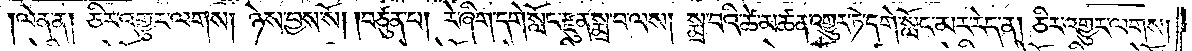ལེན་ན། ཅིར་འགྱུར་ལགས། ཉེས་བྱས་སོ། །བཙུན་པ། རེ་ཞིག་དགེ་སློང་རྫུན་སྨྲ་བ་ལས། སྨྲ་བའི་ཚེ་མཚན་འགྱུར་ཏེ་དགེ་སློང་མར་རེད་ན། ཅིར་འགྱུར་ལགས།
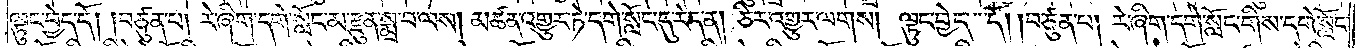ལྟུང་བྱེད་དོ། །བཙུན་པ། རེ་ཞིག་དགེ་སློང་མ་རྫུན་སྨྲ་བ་ལས། མཚན་འགྱུར་ཏེ་དགེ་སློང་དུ་རེད་ན། ཅིར་འགྱུར་ལགས། ལྟུང་བྱེད་དོ། །བཙུན་པ། རེ་ཞིག་དགེ་སློང་གིས་དགེ་སློང་
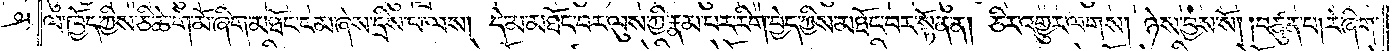ལ་ཁྱོད་ཀྱིས་ཅི་ཆེ་གེ་མོ་ཞིག་མཐོང་ངམ་ཞེས་དྲིས་པ་ལས། དེ་མ་མཐོང་བར་ལུས་ཀྱི་རྣམ་པར་རིག་བྱེད་ཀྱིས་མཐོང་བར་སྟོན་ན། ཅིར་འགྱུར་ལགས། ཉེས་བྱས་སོ། །བཙུན་པ། རེ་ཞིག་
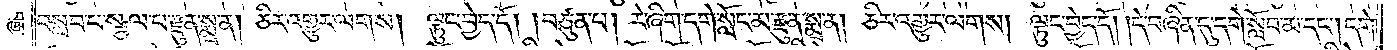བསླབ་པ་སྩལ་པ་རྫུན་སྨྲ་ན། ཅིར་འགྱུར་ལགས། ལྟུང་བྱེད་དོ། །བཙུན་པ། རེ་ཞིག་དགེ་སློང་མ་རྫུན་སྨྲ་ན། ཅིར་འགྱུར་ལགས། ལྟུང་བྱེད་དོ། །དེ་བཞིན་དུ་དགེ་སློབ་མ་དང༌། དགེ་
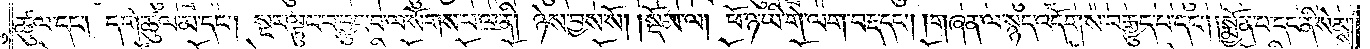ཚུལ་དང༌། དགེ་ཚུལ་མ་དང༌། སྔར་ལྟུང་བ་བྱུང་བ་ལ་སོགས་པ་ལ་ནི། ཉེས་བྱས་སོ།    །སྡོམ་ལ། ཕོ་ཉ་ཡི་གེ་ལག་བརྡ་དང༌། །གཞན་ལ་སྙད་འདོགས་བརྒྱུད་པ་དང༌། །སྨྱོན་པ་དང་ནི་སེམས་
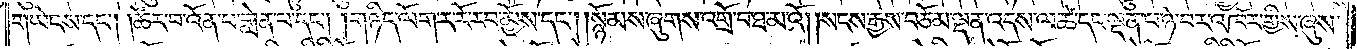གཡེངས་དང༌། །ཚོར་བ་འོན་པ་གླེན་པ་དང༌། །གཉིད་ལོག་ར་རོ་རབ་མྱོས་དང༌། །སྙོམས་ཞུགས་འགྲོ་བ་ཐ་མའོ། །སངས་རྒྱས་བཅོམ་ལྡན་འདས་ལ་ཚེ་དང་ལྡན་པ་ཉེ་བར་འཁོར་གྱིས་ཞུས་
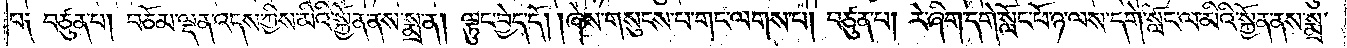པ༑ བཙུན་པ། བཅོམ་ལྡན་འདས་ཀྱིས་མིའི་སྐྱོན་ནས་སྨྲ་ན། ལྟུང་བྱེད་དོ། །ཞེས་གསུངས་པ་གང་ལགས་པ། བཙུན་པ། རེ་ཞིག་དགེ་སློང་ཕོ་ཉ་ལས་དགེ་སློང་ལ་མིའི་སྐྱོན་ནས་སྨྲ་
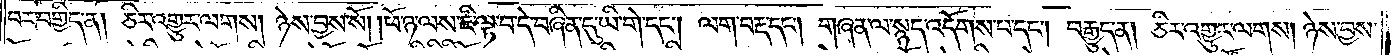བར་བགྱིད་ན། ཅིར་འགྱུར་ལགས། ཉེས་བྱས་སོ། །ཕོ་ཉ་ལས་ཇི་ལྟ་བ་དེ་བཞིན་དུ་ཡི་གེ་དང༌། ལག་བརྡ་དང༌། གཞན་ལ་སྙད་འདོགས་པ་དང༌། བརྒྱུད་ན། ཅིར་འགྱུར་ལགས། ཉེས་བྱས་
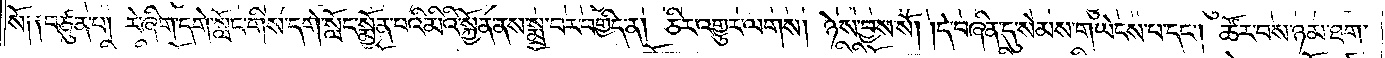སོ༑ ༑བཙུན་པ། རེ་ཞིག་དགེ་སློང་གིས་དགེ་སློང་སྨྱོན་པའི་མིའི་སྐྱོན་ནས་སྨྲ་བར་བགྱིད་ན། ཅིར་འགྱུར་ལགས། ཉེས་བྱས་སོ། །དེ་བཞིན་དུ་སེམས་གཡེངས་པ་དང༌། ཚོར་བས་ཉམ་ཐག་
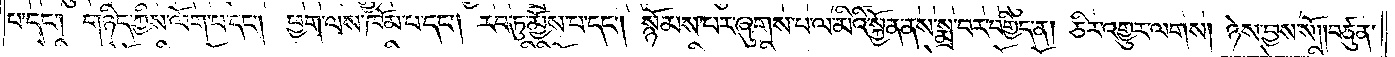པ་དང༌། གཉིད་ཀྱིས་ལོག་པ་དང༌། ཕྱག་ལས་ཁོམ་པ་དང༌། རབ་ཏུ་མྱོས་པ་དང༌། སྙོམས་པར་ཞུགས་པ་ལ་མིའི་སྐྱོན་ནས་སྨྲ་བར་བགྱིད་ན། ཅིར་འགྱུར་ལགས། ཉེས་བྱས་སོ། །བཙུན་
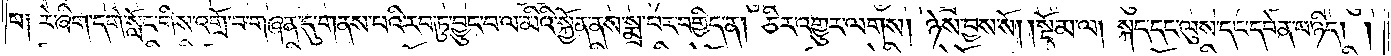པ༑ རེ་ཞིག་དགེ་སློང་གིས་འགྲོ་བ་གཞན་དུ་གནས་པའི་རབ་ཏུ་བྱུང་བ་ལ་མིའི་སྐྱོན་ནས་སྨྲ་བར་བགྱིད་ན། ཅིར་འགྱུར་ལགས། ཉེས་བྱས་སོ། །སྡོམ་ལ། སྐད་དང་ལུས་དང་དབེན་པ་ཉིད། །
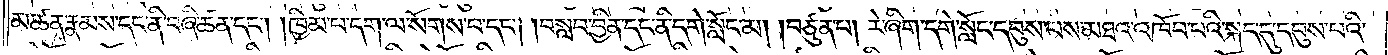མཚན་རྣམས་དང་ནི་བཞི་ཚན་དང༌། །ཁྱིམ་པ་དག་ལ་སོགས་པ་དང༌། །བསླབ་བྱིན་དང་ནི་དགེ་སློང་མ། །བཙུན་པ། རེ་ཞིག་དགེ་སློང་དབུས་པས་མཐའ་འཁོབ་པའི་སྐད་དུ་དབུས་པའི་
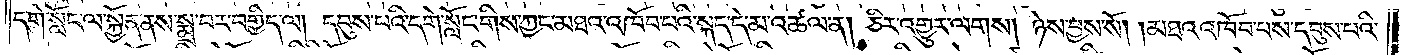དགེ་སློང་ལ་སྐྱོན་ནས་སྨྲ་བར་བགྱིད་ལ། དབུས་པའི་དགེ་སློང་གིས་ཀྱང་མཐའ་འཁོབ་པའི་སྐད་དེ་མ་འཚལ་ན། ཅིར་འགྱུར་ལགས། ཉེས་བྱས་སོ། །མཐའ་འཁོབ་པས་དབུས་པའི་
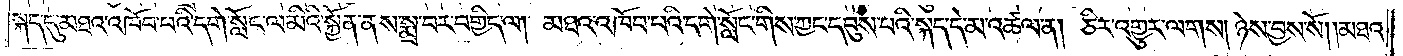སྐད་དུ་མཐའ་འཁོབ་པའི་དགེ་སློང་ལ་མིའི་སྐྱོན་ནས་སྨྲ་བར་བགྱིད་ལ། མཐའ་འཁོབ་པའི་དགེ་སློང་གིས་ཀྱང་དབུས་པའི་སྐད་དེ་མ་འཚལ་ན། ཅིར་འགྱུར་ལགས། ཉེས་བྱས་སོ། །མཐའ་
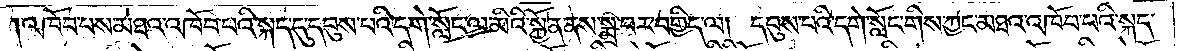འཁོབ་པས་མཐའ་འཁོབ་པའི་སྐད་དུ་དབུས་པའི་དགེ་སློང་ལ་མིའི་སྐྱོན་ནས་སྨྲ་བར་བགྱིད་ལ། དབུས་པའི་དགེ་སློང་གིས་ཀྱང་མཐའ་འཁོབ་པའི་སྐད་
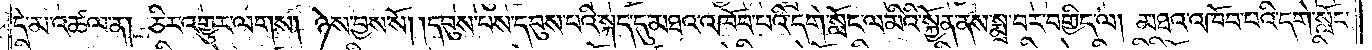དེ་མ་འཚལ་ན། ཅིར་འགྱུར་ལགས། ཉེས་བྱས་སོ། །དབུས་པས་དབུས་པའི་སྐད་དུ་མཐའ་འཁོབ་པའི་དགེ་སློང་ལ་མིའི་སྐྱོན་ནས་སྨྲ་བར་བགྱིད་ལ། མཐའ་འཁོབ་པའི་དགེ་སློང་
